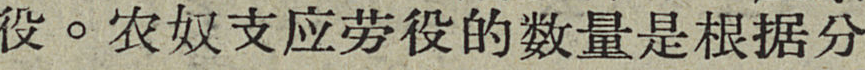役。农奴支应劳役的数量是根据分
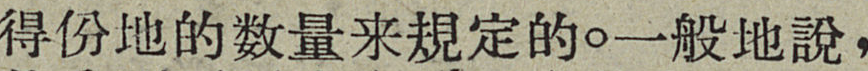得份地的数量来規定的。一般地說，
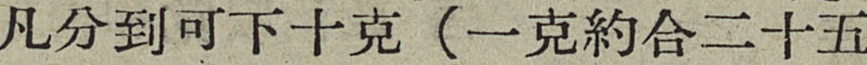凡分到可下十克（一克約合二十五
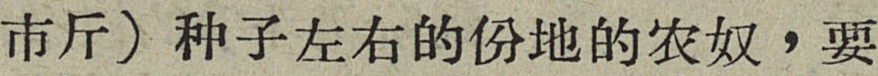市斤）种子左右的份地的农奴，要
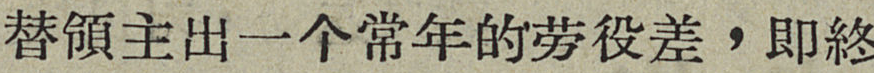替領主出一个常年的劳役差，即終
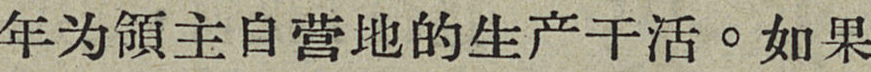年为領主自营地的生产干活。如果
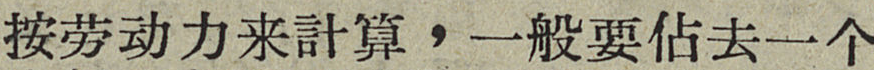按劳动力来計算，一般要佔去一个
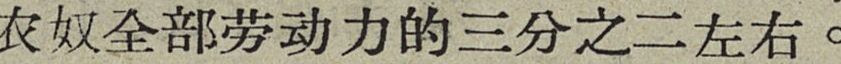农奴全部劳动力的三分之二左右。
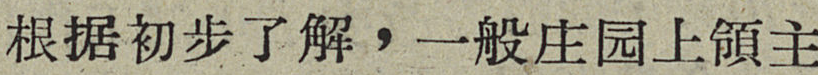根据初步了解，一般庄园上領主
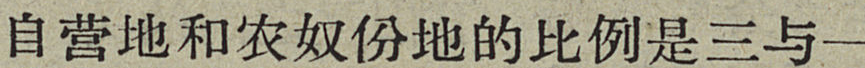自营地和农奴份地的比例是三与一
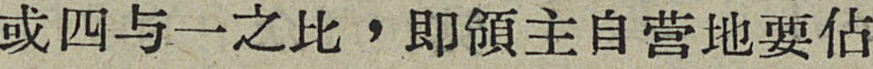或四与一之比，即領主自营地要佔
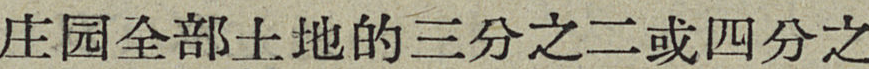庄园全部土地的三分之二或四分之
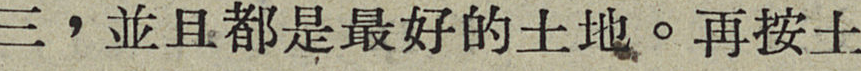三，並且都是最好的土地。再按土
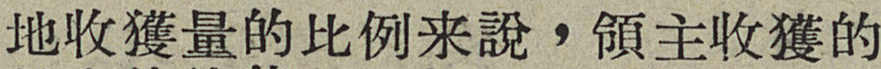地收穫量的比例来說，領主收穫的
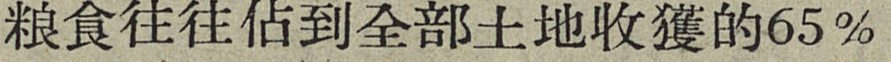粮食往往佔到全部土地收穫的65％
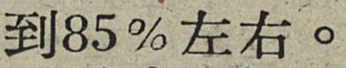到85％左右。
